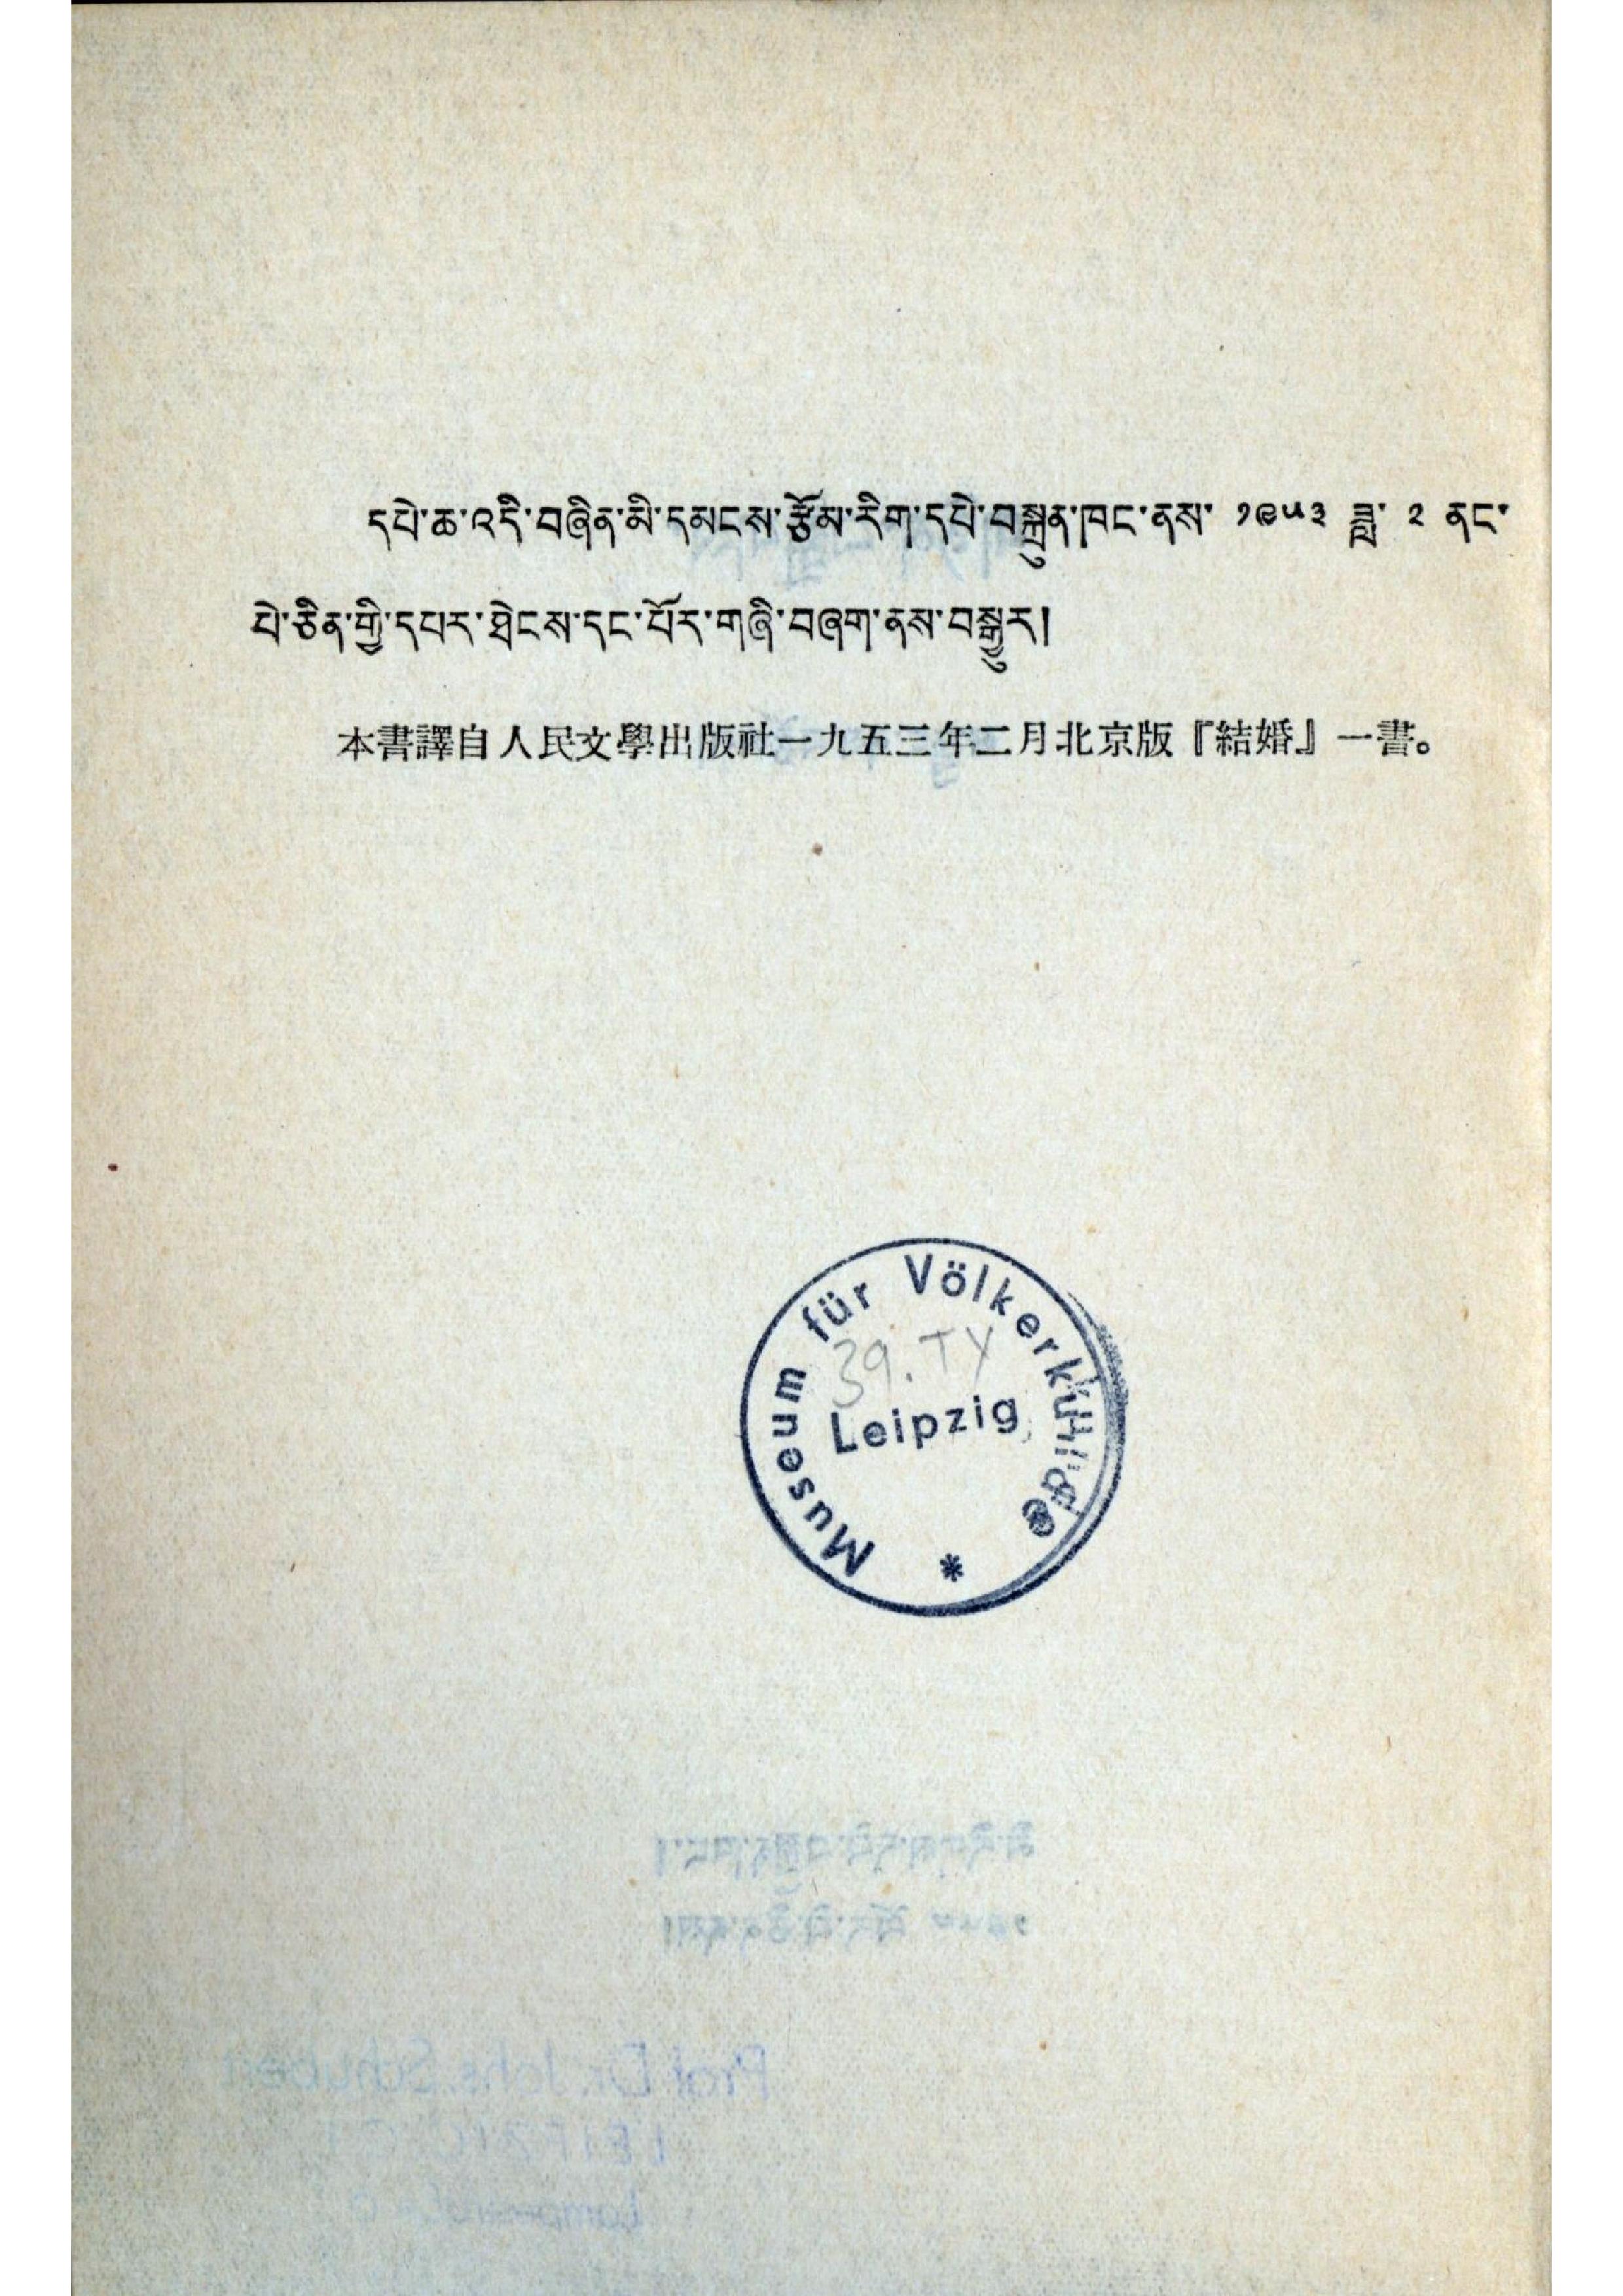དཔེ་ཆ་འདི་བཞིན་མི་དམངས་རྩོམ་རིག་དཔེ་བསྐྲུན་ཁང་ནས་ ༡༩༥༣ ཟླ་ ༢ ནང་
པེ་ཅིན་གྱི་དཔར་ཐེངས་དང་པོར་གཞི་བཞག་ནས་བསྒྱུར།
本書譯自人民文學出版社一九五三年二月北京版『結婚』一書。
